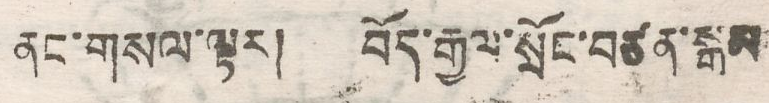ནང་གསལ་ལྟར། བོད་རྒྱལ་སྲོང་བཙུན་སྒམ་
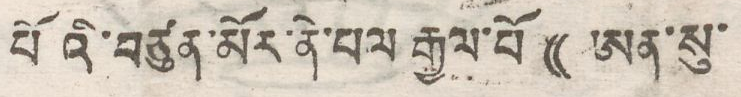པོའི་བཙུན་མོར་ནེ་པལ རྒྱལ་པོ (( ཨན་སུ་
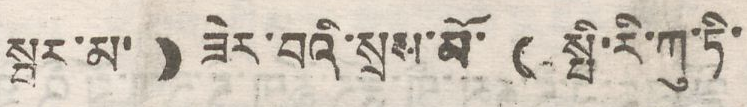སྦར་མ་ )) ཟེར་བའི་སྲས་མོ་ (( སྤྱི་རི་ཀུ་ཏི་
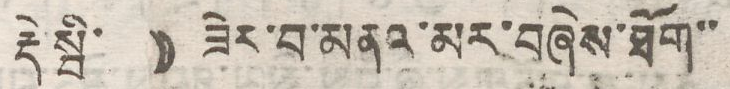རྡེ་སྤི་ )) ཟེར་བ་མནའ་མར་བཞེས་ཐོག་་
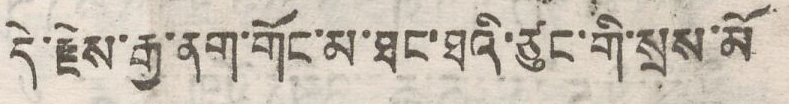དེ་རྗེས་རྒྱ་ནག་གོང་མ་ཐང་ཐའི་ཙུང་གི་སྲས་མོ
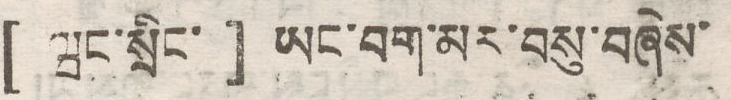[ ཝང་སྲིང་ ] ཡང་བག་མར་བསུ་བཞེས་
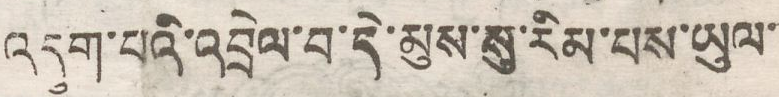འདུག་པའི་འབྲེལ་བ་དེ་མུས་སུ་རིམ་པས་ཡུལ་
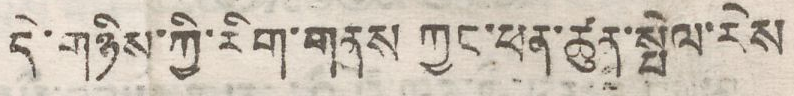དེ་གཉིས་ཀྱི་རིག་གནས ཀྱང་ཕན་ཚུན་སྤེལ་རེས
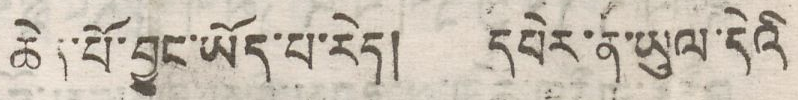ཆེན་པོ་བྱུང་ཡོད་པ་རེད། དཔེར་ན་ཡུལ་དེའི་
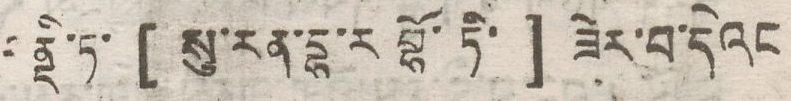རྡི་ཏ་ [ སུ་རན་དྷ་ར བྷོ་ཏི་ ] ཟེར་བ་དེའང
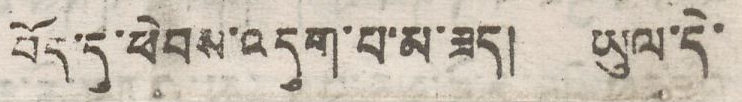བོད་དུ་ཕེབས་འདུག་པ་མ་ཟད། ཡུལ་དེ་
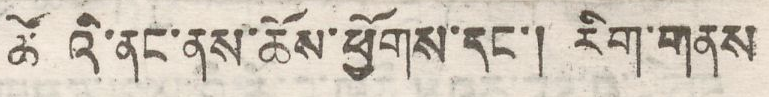ཚོའི་ནང་ནས་ཆོས་ཕྱོགས་དང་། རིག་གནས
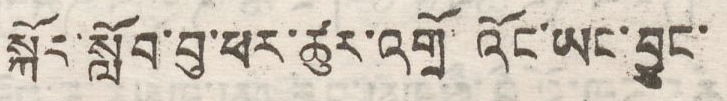སྐོར་སློབ་བུ་ཕར་ཚུར་འགྲོ་འོང་ཡང་བྱུང་
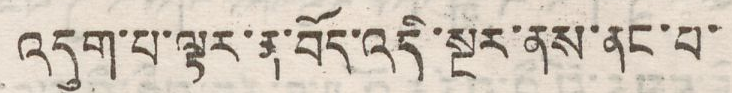འདུག་པ་ལྟར་ན་བོད་འདི་སྔར་ནས་ནང་པ་
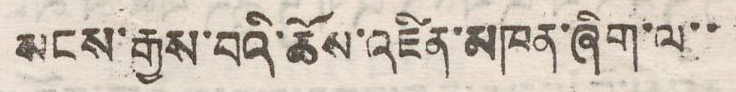སངས་རྒྱས་པའི་ཆོས་འཛིན་མཁན་ཞིག་ལ་་
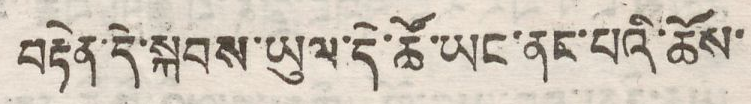བརྟེན་དེ་སྐབས་ཡུལ་དེ་ཚོ་ཡང་ནང་པའི་ཆོས་
